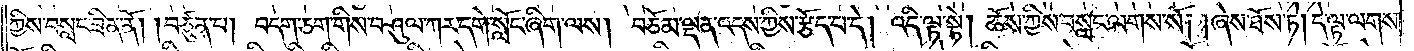ཀྱིས་བསླང་ཟིན་ནོ། །བཙུན་པ། བདག་ཅག་གིས་བཤུལ་ཀར་དགེ་སློང་ཞིག་ལས། བཅོམ་ལྡན་འདས་ཀྱིས་རྩོད་པ་དེ། འདི་ལྟ་སྟེ། ཆོས་ཀྱིས་བསླང་ལགས་སོ། །ཞེས་ཐོས་ཏེ། དེ་ལྟ་ལགས་
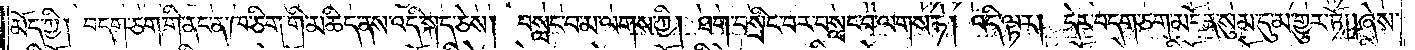མོད་ཀྱི། བདག་ཅག་གི་ནང་ན་ཁ་ཅིག་གི་མཆིད་ནས་འདི་སྐད་ཅེས། བསླང་བ་མ་ལགས་ཀྱི། ཐག་བསྲིང་བར་བསླང་བ་ལགས་ཏེ། འདི་ལྟར། དེར་བདག་ཅག་མངོན་སུམ་དུ་མ་གྱུར་ཏོ། །ཞེས་
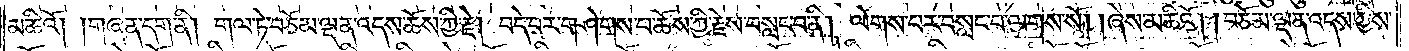མཆིའོ། །གཞན་དག་ནི། གལ་ཏེ་བཅོམ་ལྡན་འདས་ཆོས་ཀྱི་རྗེ། བདེ་བར་གཤེགས་པ་ཆོས་ཀྱི་རྗེས་བསླང་བ་ནི། ལེགས་པར་བསླང་བ་ལགས་སོ། །ཞེས་མཆིའོ། །བཅོམ་ལྡན་འདས་ཀྱིས་
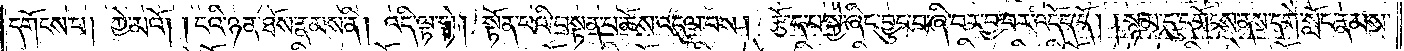དགོངས་པ། ཀྱེ་མའོ། །ངའི་ཉན་ཐོས་རྣམས་ནི། འདི་ལྟ་སྟེ། སྟོན་པའི་བསྟན་པ་ཆོས་འདུལ་བས། རྩོད་པ་སྐྱེ་ཞིང་བྱུང་བ་ཞི་བར་བྱ་བར་འདོད་དོ། །སྙམ་དུ་དགོངས་ནས་དགེ་སློང་རྣམས་
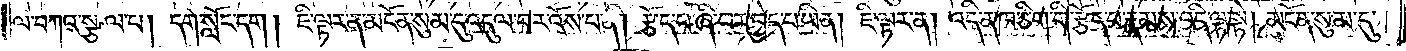ལ་བཀའ་སྩལ་པ། དགེ་སློང་དག། ཇི་ལྟར་ན་མངོན་སུམ་དུ་འདུལ་བར་འོས་པ་ནི། རྩོད་པ་ཞི་བར་བྱེད་པ་ཡིན། ཇི་ལྟར་ན། འདི་ན་ཁ་ཅིག་གི་རྩོད་པ་རྣམས་འདི་ལྟ་སྟེ། མངོན་སུམ་དུ་
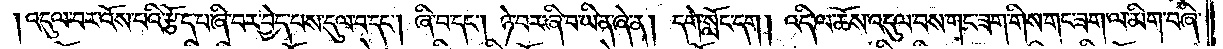འདུལ་བར་འོས་པའི་རྩོད་པ་ཞི་བར་བྱེད་པས་དུལ་བ་དང༌། ཞི་བ་དང༌། ཉེ་བར་ཞི་བ་ཡིན་ཞེ་ན། དགེ་སློང་དག། འདི་ལ་ཆོས་འདུལ་བས་གང་ཟག་གིས་གང་ཟག་ལ་མིག་བཞི་
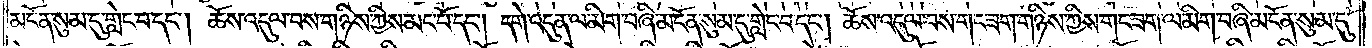མངོན་སུམ་དུ་གླེང་བ་དང༌། ཆོས་འདུལ་བས་གཉིས་ཀྱིས་མང་པོ་དང༌། དགེ་འདུན་ལ་མིག་བཞི་མངོན་སུམ་དུ་གླེང་བ་དང༌། ཆོས་འདུལ་བས་གང་ཟག་གཉིས་ཀྱིས་གང་ཟག་ལ་མིག་བཞི་མངོན་སུམ་དུ་
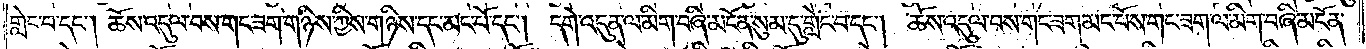གླེང་བ་དང༌། ཆོས་འདུལ་བས་གང་ཟག་གཉིས་ཀྱིས་གཉིས་དང་མང་པོ་དང༌། དགེ་འདུན་ལ་མིག་བཞི་མངོན་སུམ་དུ་གླེང་བ་དང༌། ཆོས་འདུལ་བས་གང་ཟག་མང་པོས་གང་ཟག་ལ་མིག་བཞི་མངོན་
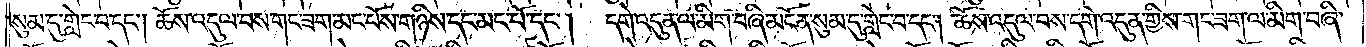སུམ་དུ་གླེང་བ་དང༌། ཆོས་འདུལ་བས་གང་ཟག་མང་པོས་གཉིས་དང་མང་པོ་དང༌། དགེ་འདུན་ལ་མིག་བཞི་མངོན་སུམ་དུ་གླེང་བ་དང༌། ཆོས་འདུལ་བས་དགེ་འདུན་གྱིས་གང་ཟག་ལ་མིག་བཞི་
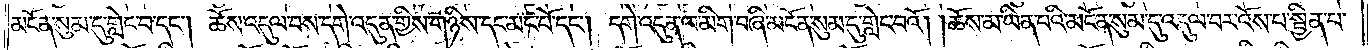མངོན་སུམ་དུ་གླེང་བ་དང༌། ཆོས་འདུལ་བས་དགེ་འདུན་གྱིས་གཉིས་དང་མང་པོ་དང༌། དགེ་འདུན་ལ་མིག་བཞི་མངོན་སུམ་དུ་གླེང་བའོ། །ཆོས་མ་ཡིན་པའི་མངོན་སུམ་དུ་འདུལ་བར་འོས་པ་སྦྱིན་པ་
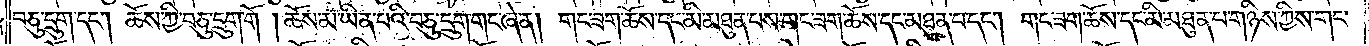བཅུ་དྲུག་དང༌། ཆོས་ཀྱི་བཅུ་དྲུག་གོ །ཆོས་མ་ཡིན་པའི་བཅུ་དྲུག་གང་ཞེ་ན། གང་ཟག་ཆོས་དང་མི་མཐུན་པས་གང་ཟག་ཆོས་དང་མཐུན་པ་དང༌། གང་ཟག་ཆོས་དང་མི་མཐུན་པ་གཉིས་ཀྱིས་གང་
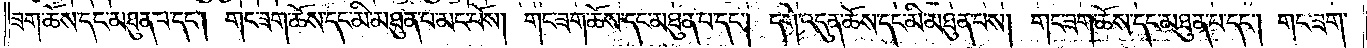ཟག་ཆོས་དང་མཐུན་པ་དང༌། གང་ཟག་ཆོས་དང་མི་མཐུན་པ་མང་པོས། གང་ཟག་ཆོས་དང་མཐུན་པ་དང༌། དགེ་འདུན་ཆོས་དང་མི་མཐུན་པས། གང་ཟག་ཆོས་དང་མཐུན་པ་དང༌། གང་ཟག་
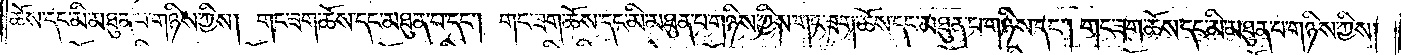ཆོས་དང་མི་མཐུན་པ་གཉིས་ཀྱིས། གང་ཟག་ཆོས་དང་མཐུན་པ་དང༌། གང་ཟག་ཆོས་དང་མི་མཐུན་པ་གཉིས་ཀྱིས་གང་ཟག་ཆོས་དང་མཐུན་པ་གཉིས་དང༌། གང་ཟག་ཆོས་དང་མི་མཐུན་པ་གཉིས་ཀྱིས།
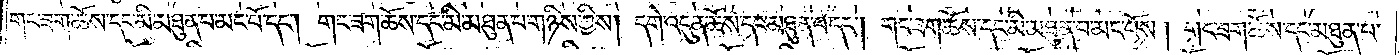གང་ཟག་ཆོས་དང་མི་མཐུན་པ་མང་པོ་དང༌། གང་ཟག་ཆོས་དང་མི་མཐུན་པ་གཉིས་ཀྱིས། དགེ་འདུན་ཆོས་དང་མཐུན་པ་དང༌། གང་ཟག་ཆོས་དང་མི་མཐུན་པ་མང་པོས། གང་ཟག་ཆོས་དང་མཐུན་པ་
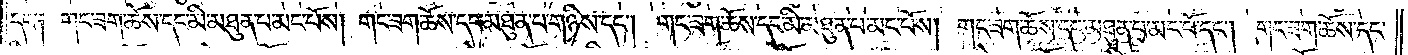དང༌། གང་ཟག་ཆོས་དང་མི་མཐུན་པ་མང་པོས། གང་ཟག་ཆོས་དང་མཐུན་པ་གཉིས་དང༌། གང་ཟག་ཆོས་དང་མི་མཐུན་པ་མང་པོས། གང་ཟག་ཆོས་དང་མཐུན་པ་མང་པོ་དང༌། གང་ཟག་ཆོས་དང་
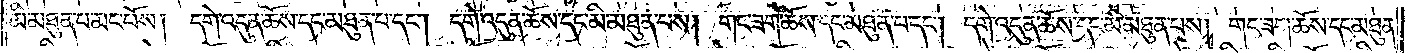མི་མཐུན་པ་མང་པོས། དགེ་འདུན་ཆོས་དང་མཐུན་པ་དང༌། དགེ་འདུན་ཆོས་དང་མི་མཐུན་པས། གང་ཟག་ཆོས་དང་མཐུན་པ་དང༌། དགེ་འདུན་ཆོས་དང་མི་མཐུན་པས། གང་ཟག་ཆོས་དང་མཐུན་
